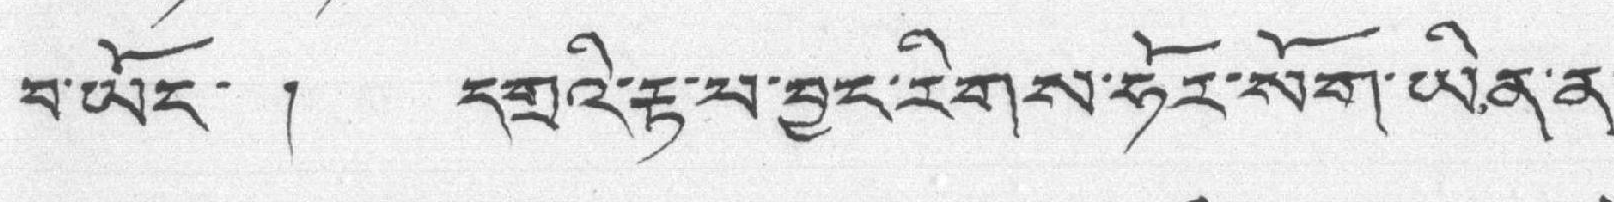བ་ཡོང་ ། དགྲའི་རྟ་པ་བྱང་རིགས་ཧོར་སོག་ཡིན་ན་
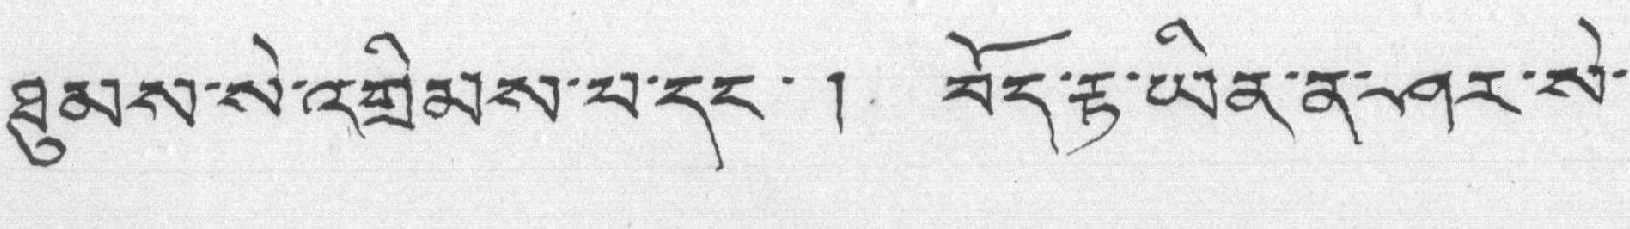ཐུམས་སེ་འགྲིམས་པ་དང་ ། བོད་རྟ་ཡིན་ན་ཤར་སེ་
